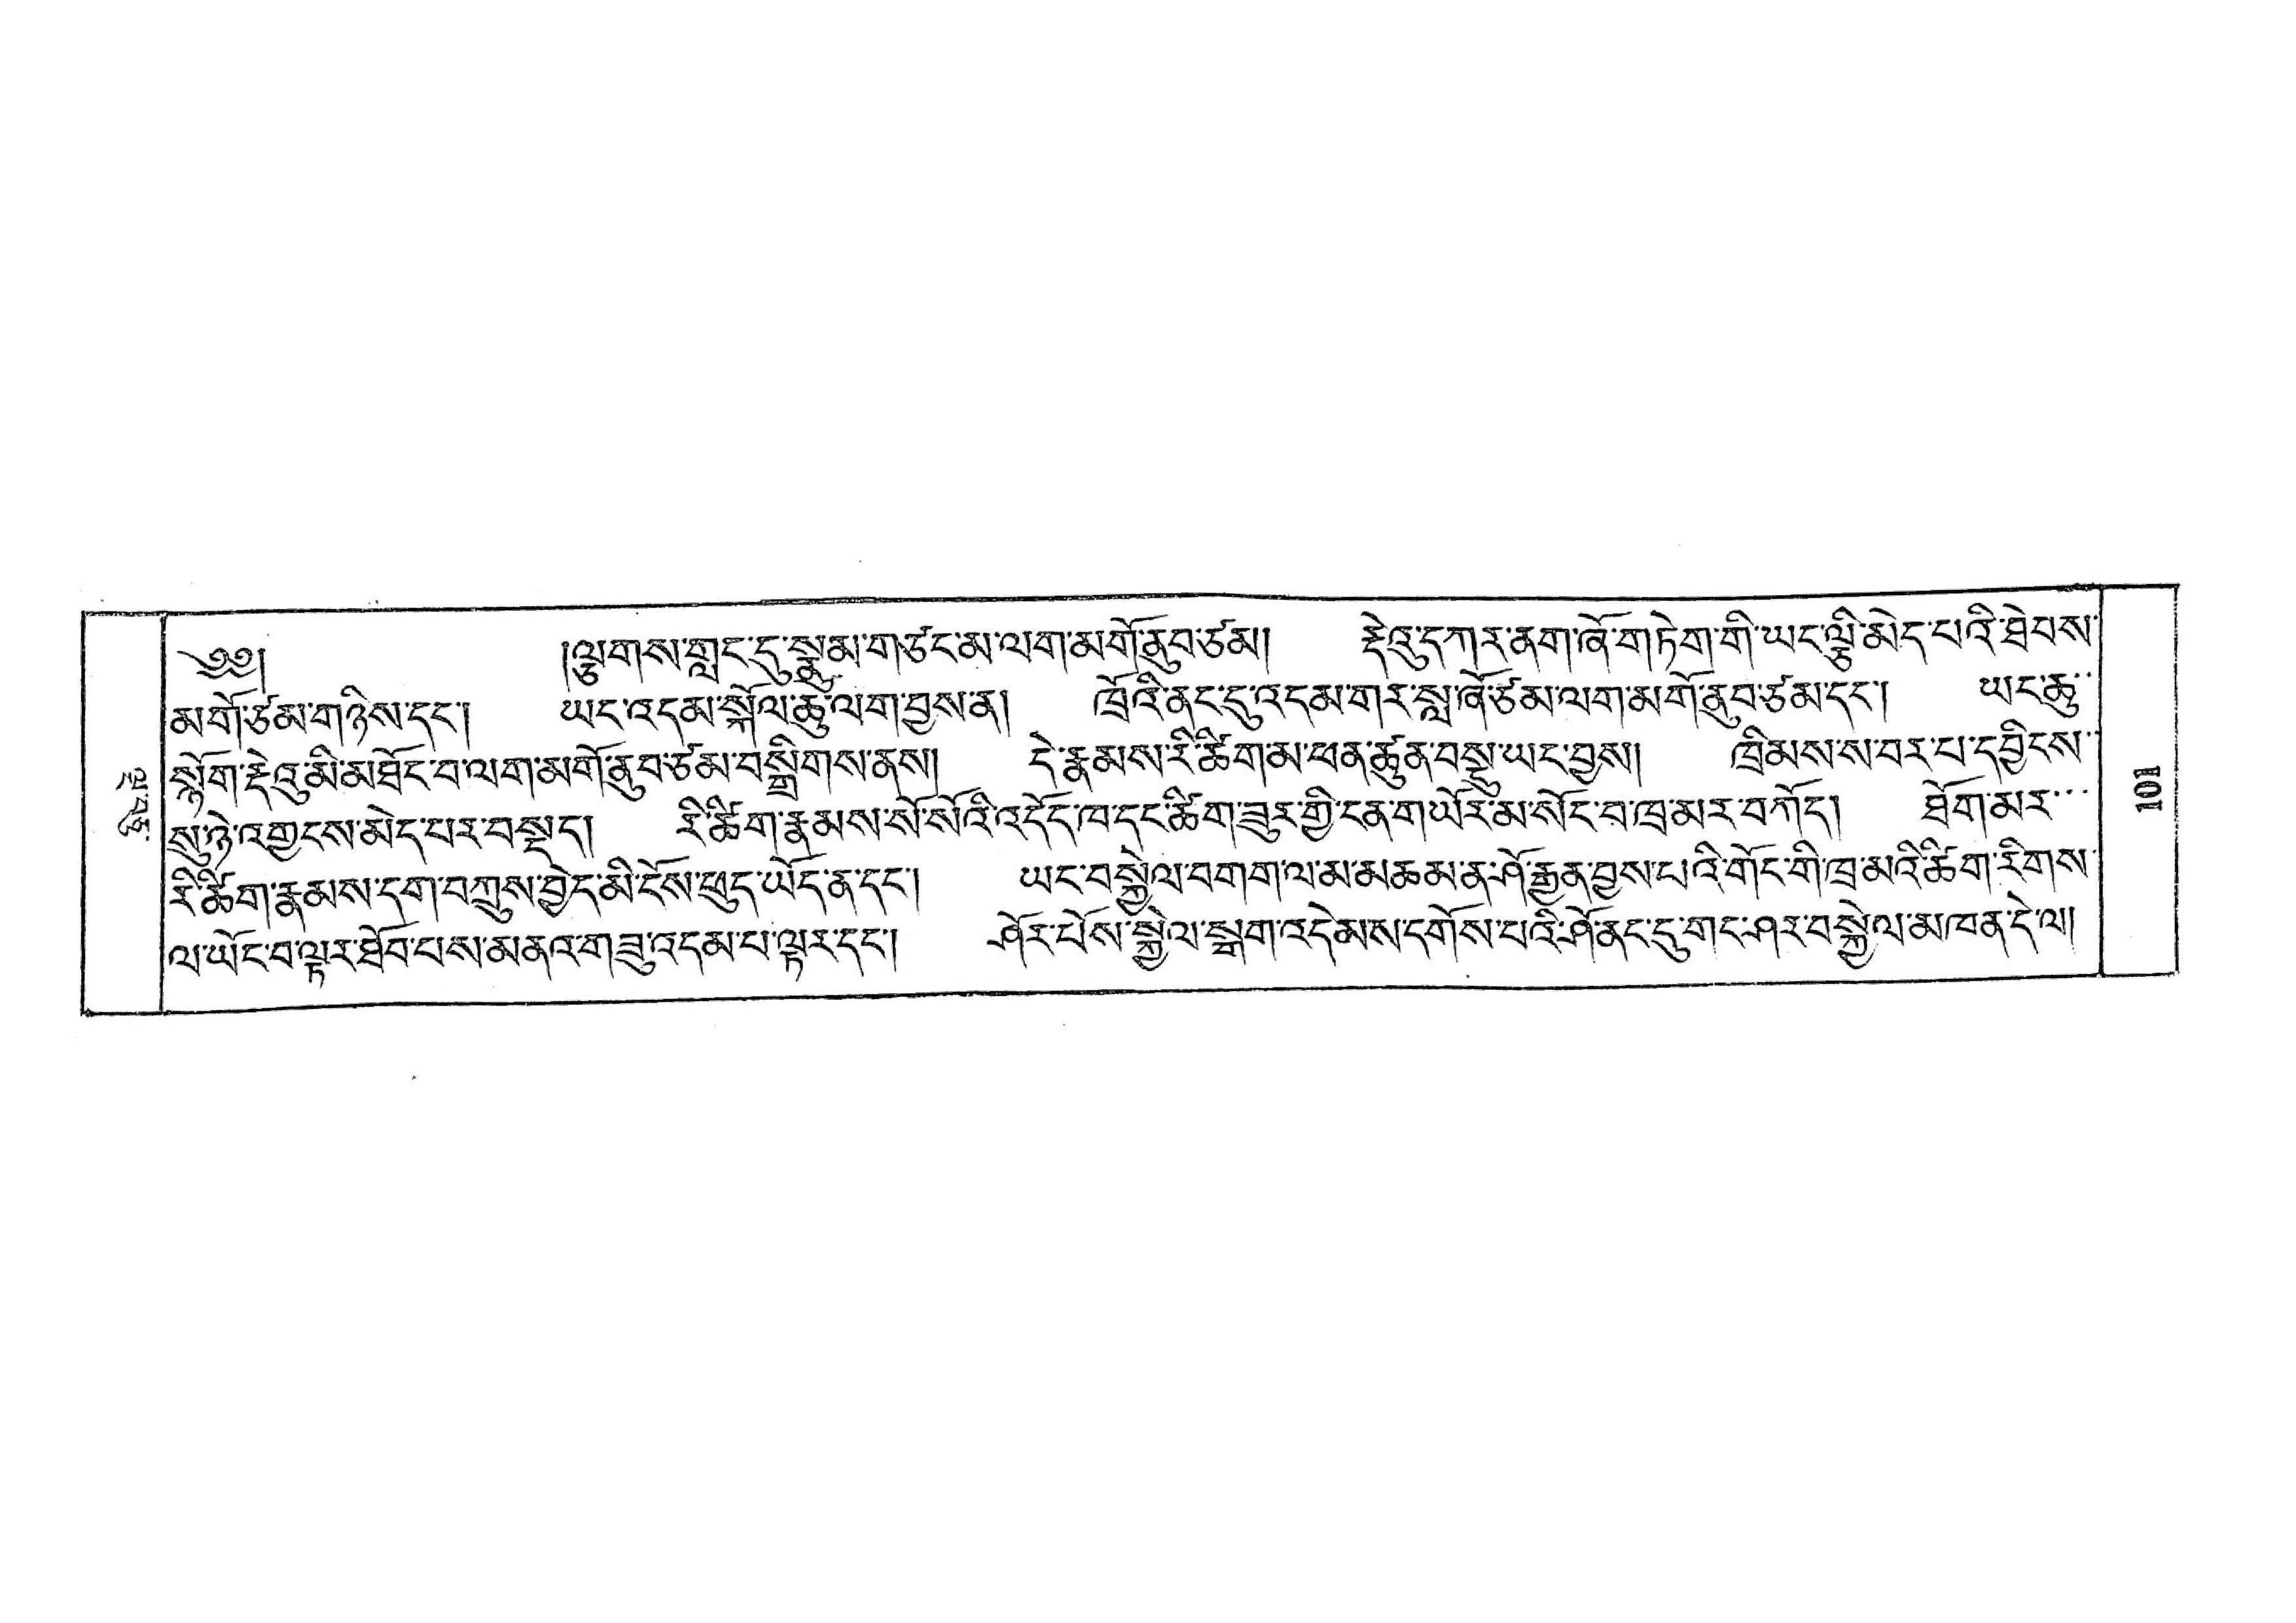ལྔ་བཅུ་
༄༅།  །ལྕགས་གླང་དུ་སྣུམ་གཙང་མ་ལག་མགོ་ནུབ་ཙམ། རྡེའུ་དཀར་ནག་ཞོ་གཏེག་གི་ཡང་ལྕི་མེད་པའི་ཐེབས་
མགོ་ཙམ་གཉིས་དང་། ཡང་འདམ་སྐོལ་ཆུ་ལག་བྱས་ན། ཁྲོའི་ནང་དུ་འདམ་གར་སླ་ཞོ་ཙམ་ལག་མགོ་ནུབ་ཙམ་དང་། ཡང་ཆུ་་
སྙོག་རྡེའུ་མི་མཐོང་བ་ལག་མགོ་ནུབ་ཙམ་བསྒྲིགས་ནས། དེ་རྣམས་རི་ཚིག་མ་ཕན་ཚུན་བསྡུ་ཡང་བྱས། ཁྲིམས་ས་བར་པ་དབྱིངས་་
སུ་ཉེ་འགྱངས་མེད་པར་བསྡད། རི་ཚིག་རྣམས་སོ་སོའི་འདོད་ཁ་དང་ཚིག་ཟུར་གྱི་ངན་གཡོར་མ་སོང་བ་ཁྲ་མར་བཀོད། ཐོག་མར་་་
རི་ཚིག་རྣམས་དག་བཀྲུས་བྱེད་མི་ངོས་ཕུད་ཡོད་ན་དང་། ཡང་བསྐྱེལ་བགག་ལ་མ་མཆམ་ན་ཤོ་རྒྱུན་བྱས་པའི་གོང་གི་ཁྲ་མའི་ཚིག་རིགས་
ལ་ཡོང་བ་ལྟར་ཐོབ་པས་མནའ་གཟུ་འདུམ་པ་ལྟར་དང་། ཤོར་པོས་སྐྱེལ་སྒག་འདེམས་དགོས་པའི་ཤོ་ནང་དུ་གང་ཤར་བསྐྱེལ་མཁན་དེ་ལ།
